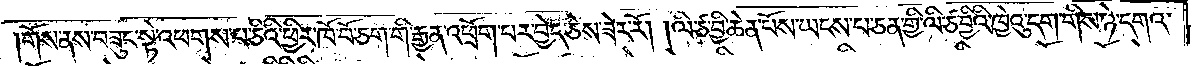གོས་ནས་བཟུང་སྟེ་འཕགས་པ་ཅིའི་ཕྱིར་ཁོ་བོ་ཅག་གི་རྒྱན་འཕྲོག་པར་བྱེད་ཅེས་ཟེར་རོ། །ལི་ཙ་བྱི་ཆེན་པོས་ཡངས་པ་ཅན་གྱི་ལི་ཙ་བྱིའི་ཁྱེའུ་དག་གིས་ཉེ་དགའ་
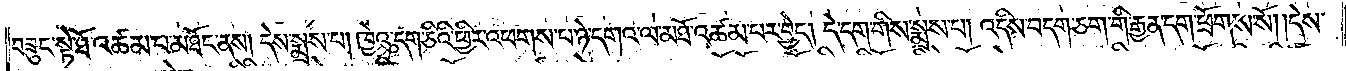བཟུང་སྟེ་ཐོ་འཚམ་པ་མཐོང་ནས། དེས་སྨྲས་པ། ཁྱེའུ་དག་ཅིའི་ཕྱིར་འཕགས་པ་ཉེ་དགའ་ལ་མཐོ་འཚམ་པར་བྱེད། དེ་དག་གིས་སྨྲས་པ། འདིས་བདག་ཅག་གི་རྒྱན་དག་ཕྲོགས་སོ། །དེས་
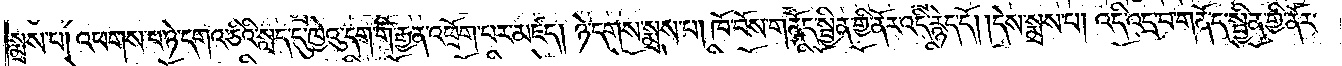སྨྲས་པ། འཕགས་པ་ཉེ་དགའ་ཅིའི་སླད་དུ་ཁྱེའུ་དག་གི་རྒྱན་འཕྲོག་པར་མཛད། ཉེ་དགས་སྨྲས་པ། ཁོ་བོས་གནོད་སྦྱིན་གྱི་ནོར་འདི་རྙེད་དོ། །དེས་སྨྲས་པ། འདི་འདྲ་བ་གནོད་སྦྱིན་གྱི་ནོར་
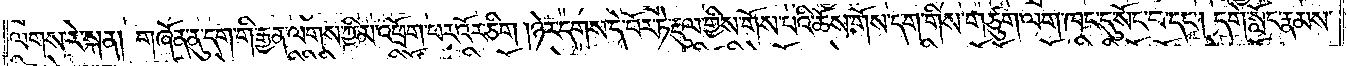ལགས་རེ་སྐན། གཞོན་ནུ་དག་གི་རྒྱན་ལགས་ཀྱི་མ་འཕྲོག་པར་འོར་ཅིག །ཉེ་དགས་དེ་བོར་ཏེ་རྡུལ་གྱིས་གོས་པའི་ཆོས་གོས་དག་གིས་གཙུག་ལག་ཁང་དུ་སོང་བ་དང༌། དགེ་སློང་རྣམས་
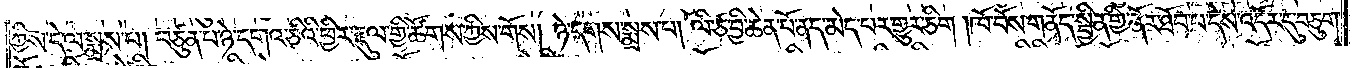ཀྱིས་དེ་ལ་སྨྲས་པ། བཙུན་པ་ཉེ་དགའ་ཅིའི་ཕྱིར་རྡུལ་གྱི་ཚོགས་ཀྱིས་གོས། ཉེ་དགས་སྨྲས་པ། ལི་ཙ་བྱི་ཆེན་པོ་ནད་མེད་པར་གྱུར་ཅིག །ཁོ་བོས་གནོད་སྦྱིན་གྱི་ནོར་ཐོབ་པ་དེས་འདོར་དུ་བཅུག་
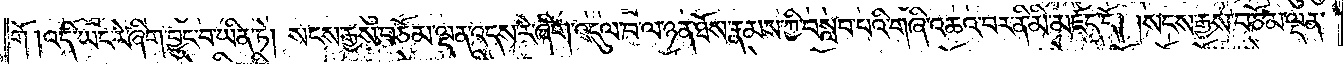གོ །འདི་ཡང་རེ་ཞིག་བྱུང་བ་ཡིན་ཏེ། སངས་རྒྱས་བཅོམ་ལྡན་འདས་རེ་ཞིག་འདུལ་བ་ལ་ཉན་ཐོས་རྣམས་ཀྱི་བསླབ་པའི་གཞི་འཆའ་བར་ནི་མི་མཛད་དོ། །སངས་རྒྱས་བཅོམ་ལྡན་
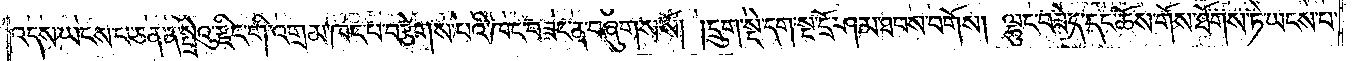འདས་ཡངས་པ་ཅན་ན་སྤྲེའུ་རྫིང་གི་འགྲམ་ཁང་པ་བརྩེགས་པའི་ཁང་བཟང་ན་བཞུགས་སོ། །དྲུག་སྡེ་དག་སྔ་དྲོ་ཤམ་ཐབས་བགོས། ལྷུང་བཟེད་དང་ཆོས་གོས་ཐོགས་ཏེ་ཡངས་པ་
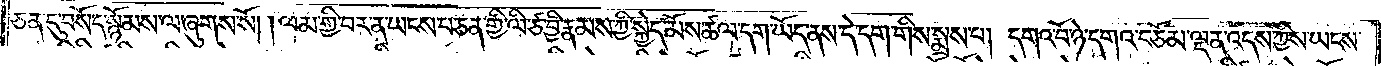ཅན་དུ་བསོད་སྙོམས་ལ་ཞུགས་སོ། །ལམ་གྱི་བར་ན་ཡངས་པ་ཅན་གྱི་ལི་ཙ་བྱི་རྣམས་ཀྱི་སྐྱེད་མོས་ཚལ་དག་ཡོད་ནས་དེ་དག་གིས་སྨྲས་པ། དགའ་བོ་ཉེ་དགའ་བཅོམ་ལྡན་འདས་ཀྱིས་ཡངས་
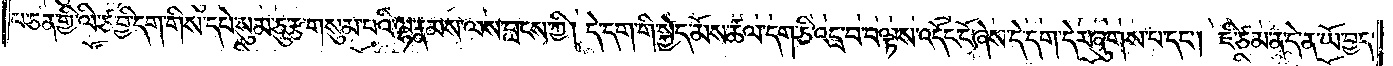པ་ཅན་གྱི་ལི་ཙ་བྱི་དག་གིས་དཔེ་སུམ་ཅུ་རྩ་གསུམ་པའི་ལྷ་རྣམས་ལས་བླངས་ཀྱི། དེ་དག་གི་སྐྱེད་མོས་ཚལ་དག་ཅི་འདྲ་བ་བལྟས་འདོང་ངོ་ཞེས་དེ་དག་དེར་ཞུགས་པ་དང༌། ཇི་ཙམ་ན་དེ་ན་ཡོ་བྱད་
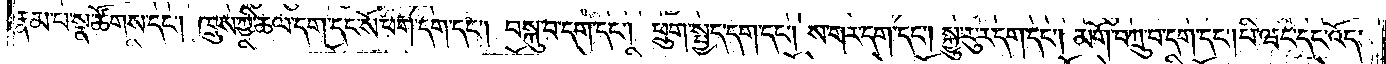རྣམ་པ་སྣ་ཚོགས་དང༌། ཁྲུས་ཀྱི་ཆལ་དག་དང་སོ་ཕག་དག་དང༌། བསྐུ་བ་དག་དང༌། ཕྲུག་སྤྱད་དག་དང༌། ས་གར་དག་དང༌། སྐྱུ་རུ་ར་དག་དང༌། མགོ་བཀྲུ་བ་དག་དང༌། པི་ཝང་དང་འོད་
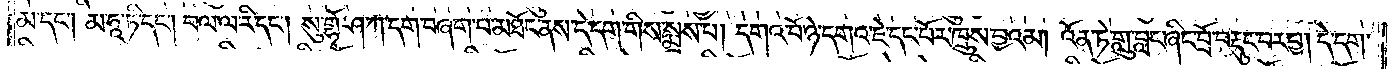མ་དང༌། མ་ཧཱ་ཏི་དང༌། བལ་ལ་རི་དང༌། སུ་གྷོ་ཤ་ཀ་དག་བཞག་པ་མཐོང་ནས་དེ་དག་གིས་སྨྲས་པ། དགའ་བོ་ཉེ་དགའ་ཇེ་དང་པོར་ཁྲུས་བྱའམ། འོན་ཏེ་གླུ་བླང་ཞིང་བྲོ་བརྡུང་བར་བྱ། དེ་དག་
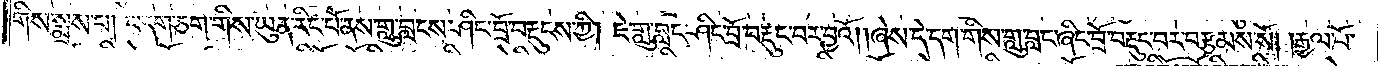གིས་སྨྲས་པ། བདག་ཅག་གིས་ཡུན་རིང་པོ་ནས་གླུ་བླངས་ཤིང་བྲོ་བརྡུངས་ཀྱི། ཇེ་གླུ་བླང་ཤིང་བྲོ་བརྡུང་བར་བྱའོ། །ཞེས་དེ་དག་གིས་གླུ་བླང་ཞིང་བྲོ་བརྡུང་བར་བརྩམས་སོ། །རྒྱལ་པོ་
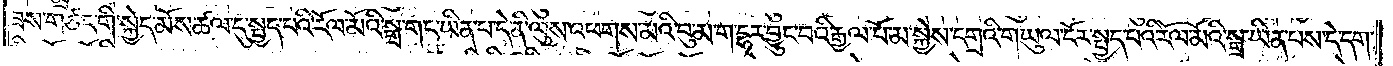ཟས་གཙང་གི་སྐྱེད་མོས་ཚལ་དུ་སྤྱད་པའི་རོལ་མོའི་སྒྲ་གང་ཡིན་པ་དེ་ནི་ལུས་འཕགས་མའི་བུ་མ་ག་དྷར་བྱུང་བའི་རྒྱལ་པོ་མ་སྐྱེས་དགྲའི་གཡུལ་ངོར་སྤྱད་པའི་རོལ་མོའི་སྒྲ་ཡིན་པས་དེ་དག་
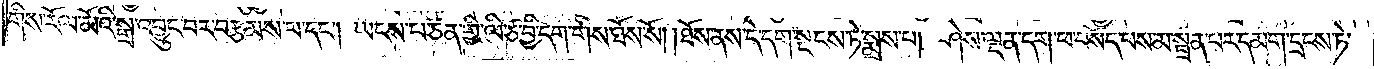གིས་རོལ་མོའི་སྒྲ་འབྱུང་བར་བརྩམས་པ་དང༌། ཡངས་པ་ཅན་གྱི་ལི་ཙ་བྱི་དག་གིས་ཐོས་སོ། །ཐོས་ནས་དེ་དག་སྔངས་ཏེ་སྨྲས་པ། ཤེས་ལྡན་དག་ཕ་བསོད་པས་མ་སྦྲན་པར་དམག་དྲངས་ཏེ་
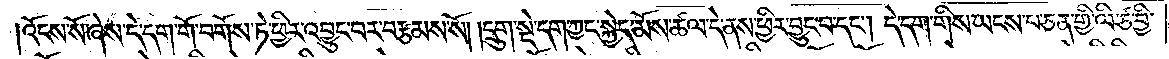འོངས་སོ་ཞེས་དེ་དག་གོ་བགོས་ཏེ་ཕྱིར་འབྱུང་བར་བརྩམས་སོ། །དྲུག་སྡེ་དག་ཀྱང་སྐྱེད་མོས་ཚལ་དེ་ནས་ཕྱིར་བྱུང་བ་དང༌། དེ་དག་གིས་ཡངས་པ་ཅན་གྱི་ལི་ཙ་བྱི་
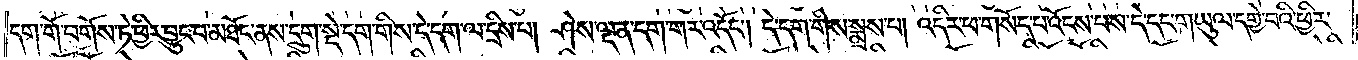དག་གོ་བགོས་ཏེ་ཕྱིར་བྱུང་བ་མཐོང་ནས་དྲུག་སྡེ་དག་གིས་དེ་དག་ལ་དྲིས་པ། ཤེས་ལྡན་དག་གར་འདོང༌། དེ་དག་གིས་སྨྲས་པ། འདིར་ཕ་གསོད་པ་འོངས་པས་དེ་དང་གཡུལ་དགྱེ་བའི་ཕྱིར་
